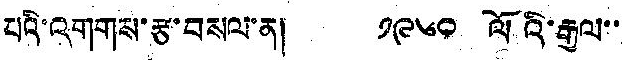པའི་འགགས་རྩ་བསལ་ན། ༡༩༦༠ ལོའི་རྒྱལ་་
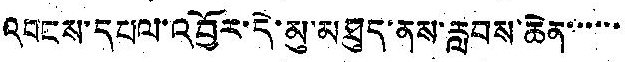འབངས་དཔལ་འབྱོར་དེ་མུ་མཐུད་ནས་རླབས་ཆེན་་་་་་
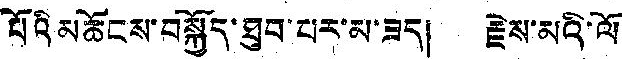པོའི མཆོངས་བསྐྱོད་ཐུབ་པར་མ་ཟད། རྗེས་མའི་ལོ
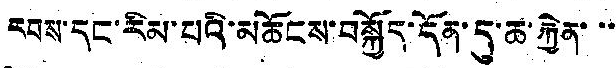རབས་དང་རིམ་པའི་མཆོངས་བསྐྱོད་དོན་དུ་ཆ་རྐྱེན་་་
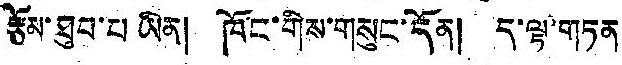རྩོམ་ཐུབ་པ ཡིན། ཁོང་གིས་གསུང་དོན། ད་ལྟ་གཏན
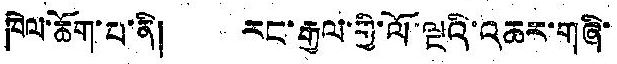ཁེལ་ཆོག་པ་ནི། རང་རྒྱལ་གྱི་ལོ་ལྔའི་འཆར་གཞི་
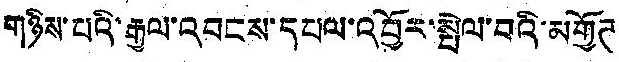གཉིས་པའི་རྒྱལ་འབངས་དཔལ་འབྱོར་སྤེལ་བའི་མགྱོཊ
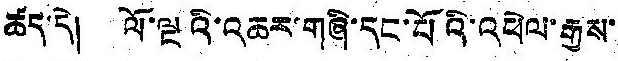ཚད་དེ། ལོ་ལྔའི་འཆར་གཞི་དང་པོའི་འཕེལ་རྒྱས་
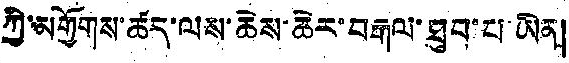ཀྱི་མགྱོགས་ཚད་ལས་ཆེས་ཆེར་བརྒལ་ཐུབ་པ་ཡིན།
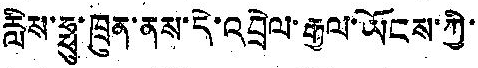རླིས་ཧྥུ་ཁྲུན་ནས་དེ་འབྲེལ་རྒྱལ་ཡོངས་ཀྱི་
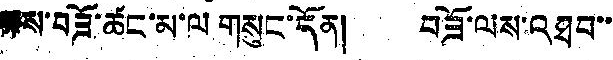ལས་བཟོ་ཚང་མ་ལ གསུང་དོན། བཟོ་ལས་འཐབ་་
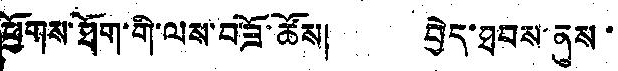ཕྱོགས་ཐོག་གི་ལས་བཟོ་ཚོས། བྱེད་ཐབས་ནུས་
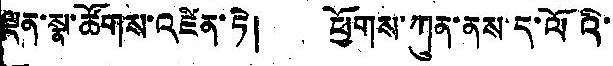ལྡན་སྣ་ཚོགས་འཛིན་ཏེ། ཕྱོགས་ཀུན་ནས་ད་ལོའི་
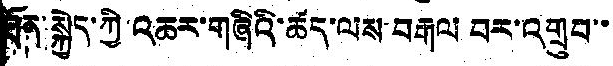ཐོན་སྐྱེད་ཀྱི་འཆར་གཞིའི་ཚད་ལས་བརྒལ བར་འགྲུབ་་
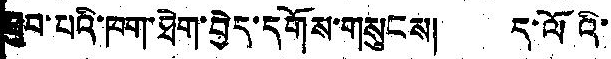ཐུབ་པའི་ཁག་ཐེག་བྱེད་དགོས་གསུངས། ད་ལོའི་
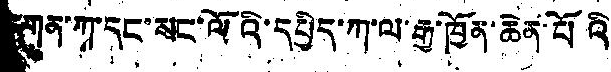དགན་ཀ་དང་སང་ལོའི་དཔྱིད་ཀ་ལ་རྒྱ་ཁྱོན་ཆེན་པོའི
